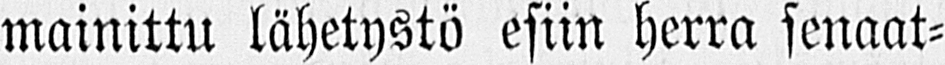mainittu lähetystö esiin herra senaat-
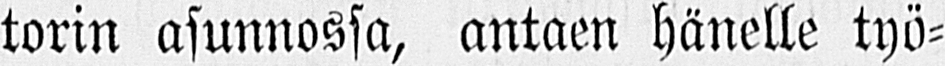torin asunnossa, antaen hänelle työ-
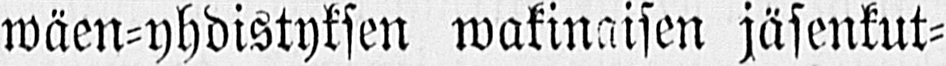wäen-yhdistyksen wakinaisen jäsenkut-
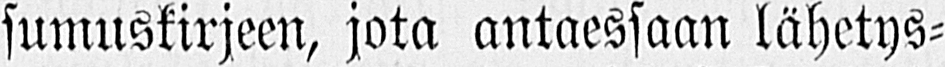sumuskirjeen, jota antaessaan lähetys-
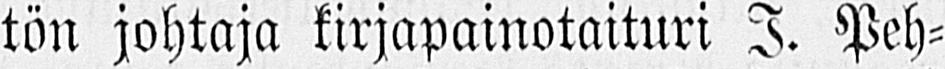tön johtaja kirjapainotaituri I. Peh-
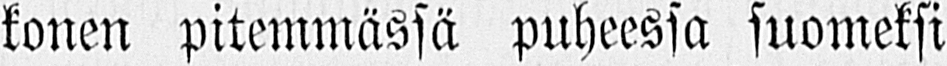konen pitemmässä puheessa suomeksi
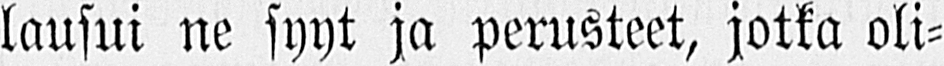lausui ne syyt ja perusteet, jotka oli-
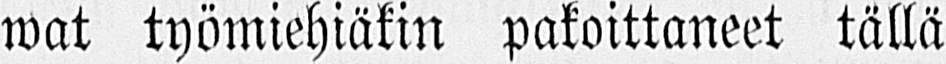wat työmiehiäkin pakoittaneet tällä
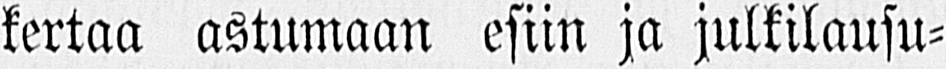kertaa astumaan esiin ja julkilausu-
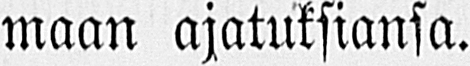maan ajatuksiansa.
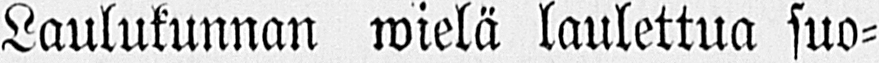Laulukunnan wielä laulettua suo-
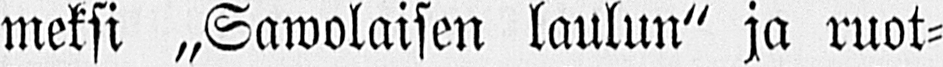meksi „Sawolaisen laulun" ja ruot-
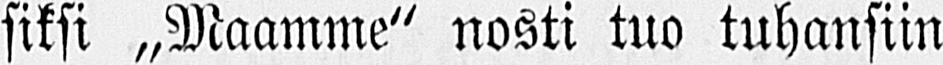siksi „Maamme" nosti tuo tuhansiin
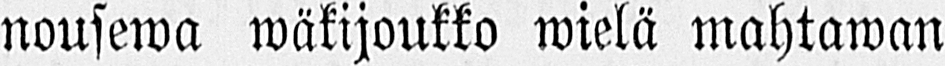nousewa wäkijoukko wielä mahtawan
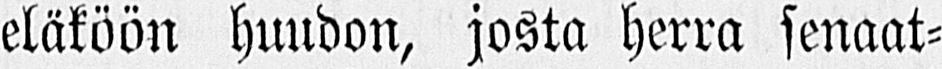eläköön huudon, josta herra senaat-
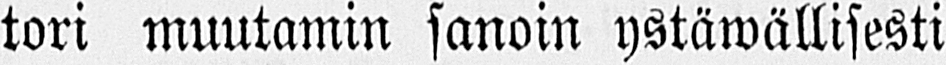tori muutamin sanoin ystäwällisesti
